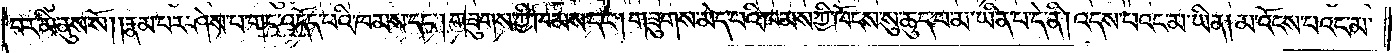བར་མི་ནུས་སོ། །རྣམ་པར་ཤེས་པ་གང་འདོད་པའི་ཁམས་དང༌། གཟུགས་ཀྱི་ཁམས་དང༌། གཟུགས་མེད་པའི་ཁམས་ཀྱི་ཁོངས་སུ་ཆུད་པ་མ་ཡིན་པ་དེ་ནི། འདས་པའང་མ་ཡིན། མ་འོངས་པའང་མ་
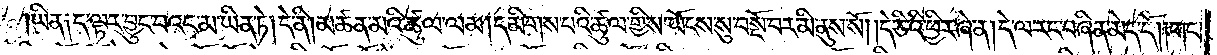ཡིན༑ ད་ལྟར་བྱུང་བའང་མ་ཡིན་ཏེ། དེ་ནི། མཚན་མའི་ཚུལ་ལམ། དམིགས་པའི་ཚུལ་གྱིས་ཡོངས་སུ་བསྔོ་བར་མི་ནུས་སོ། །དེ་ཅིའི་ཕྱིར་ཞེ་ན། དེ་ལ་རང་བཞིན་མེད་དོ། །གང་
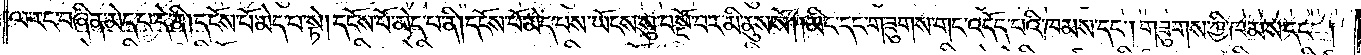ལ་རང་བཞིན་མེད་པ་དེ་ནི། དངོས་པོ་མེད་པ་སྟེ། དངོས་པོ་མེད་པ་ནི། དངོས་པ་མེད་པས་ཡོངས་སུ་བསྔོ་བར་མི་ནུས་སོ། །མིང་དང་གཟུགས་གང་འདོད་པའི་ཁམས་དང༌། གཟུགས་ཀྱི་ཁམས་དང༌།
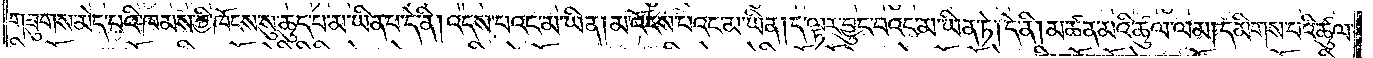གཟུགས་མེད་པའི་ཁམས་ཀྱི་ཁོངས་སུ་ཆུད་པ་མ་ཡིན་པ་དེ་ནི། འདས་པའང་མ་ཡིན། མ་འོངས་པའང་མ་ཡིན། ད་ལྟར་བྱུང་བའང་མ་ཡིན་ཏེ། དེ་ནི། མཚན་མའི་ཚུལ་ལམ། དམིགས་པའི་ཚུལ་
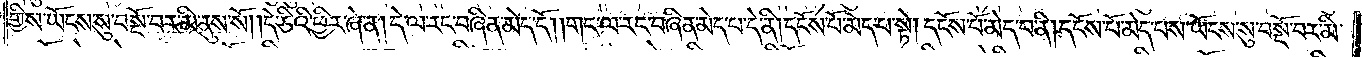གྱིས་ཡོངས་སུ་བསྔོ་བར་མི་ནུས་སོ། །དེ་ཅིའི་ཕྱིར་ཞེ་ན། དེ་ལ་རང་བཞིན་མེད་དོ། །གང་ལ་རང་བཞིན་མེད་པ་དེ་ནི། དངོས་པོ་མེད་པ་སྟེ། དངོས་པོ་མེད་པ་ནི། དངོས་པོ་མེད་པས་ཡོངས་སུ་བསྔོ་བར་མི་
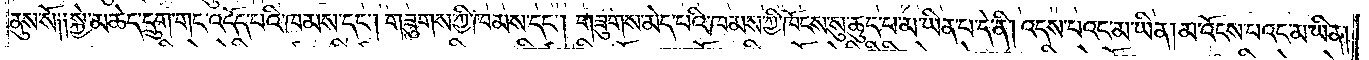ནུས་སོ༑ ༑སྐྱེ་མཆེད་དྲུག་གང་འདོད་པའི་ཁམས་དང༌། གཟུགས་ཀྱི་ཁམས་དང༌། གཟུགས་མེད་པའི་ཁམས་ཀྱི་ཁོངས་སུ་ཆུད་པ་མ་ཡིན་པ་དེ་ནི། འདས་པའང་མ་ཡིན། མ་འོངས་པའང་མ་ཡིན།
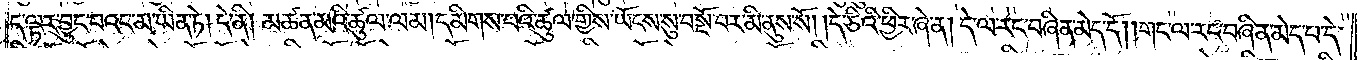ད་ལྟར་བྱུང་བའང་མ་ཡིན་ཏེ། དེ་ནི། མཚན་མའི་ཚུལ་ལམ། དམིགས་པའི་ཚུལ་གྱིས་ཡོངས་སུ་བསྔོ་བར་མི་ནུས་སོ། །དེ་ཅིའི་ཕྱིར་ཞེ་ན། དེ་ལ་རང་བཞིན་མེད་དོ། །གང་ལ་རང་བཞིན་མེད་པ་དེ་
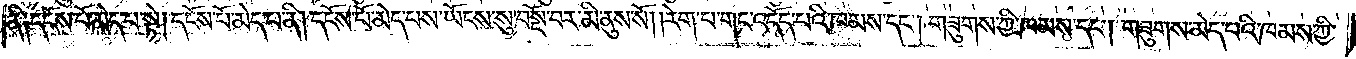ནི༑ དངོས་པོ་མེད་པ་སྟེ། དངོས་པོ་མེད་པ་ནི། དངོས་པོ་མེད་པས་ཡོངས་སུ་བསྔོ་བར་མི་ནུས་སོ། །རེག་པ་གང་འདོད་པའི་ཁམས་དང༌། གཟུགས་ཀྱི་ཁམས་དང༌། གཟུགས་མེད་པའི་ཁམས་ཀྱི་
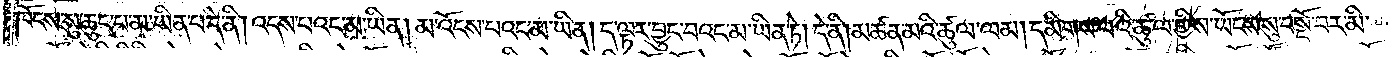ཁོངས་སུ་ཆུད་པ་མ་ཡིན་པ་དེ་ནི། འདས་བའང་མ་ཡིན། མ་འོངས་པའང་མ་ཡིན། ད་ལྟར་བྱུང་བའང་མ་ཡིན་ཏེ། དེ་ནི། མཚན་མའི་ཚུལ་ལམ། དམིགས་པའི་ཚུལ་གྱིས་ཡོངས་སུ་བསྔོ་བར་མི་
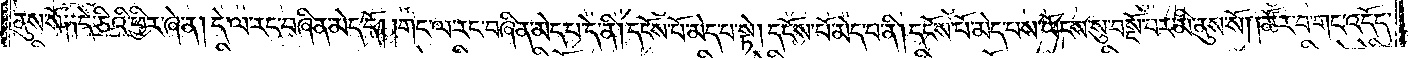ནུས་སོ༑ ༑དེ་ཅིའི་ཕྱིར་ཞེ་ན། དེ་ལ་རང་བཞིན་མེད་དོ། །གང་ལ་རང་བཞིན་མེད་པ་དེ་ནི། དངོས་པོ་མེད་པ་སྟེ། དངོས་པོ་མེད་པ་ནི། དངོས་པོ་མེད་པས་ཡོངས་སུ་བསྔོ་བར་མི་ནུས་སོ། །ཚོར་བ་གང་འདོད་
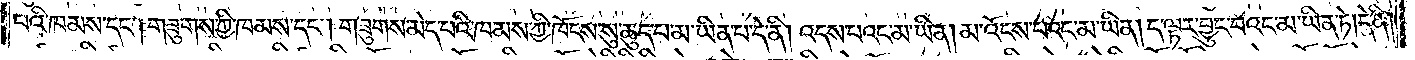པའི་ཁམས་དང༌། གཟུགས་ཀྱི་ཁམས་དང༌། གཟུགས་མེད་པའི་ཁམས་ཀྱི་ཁོངས་སུ་ཆུད་པ་མ་ཡིན་པ་དེ་ནི། འདས་པའང་མ་ཡིན། མ་འོངས་པའང་མ་ཡིན། ད་ལྟར་བྱུང་བའང་མ་ཡིན་ཏེ། དེ་ནི།
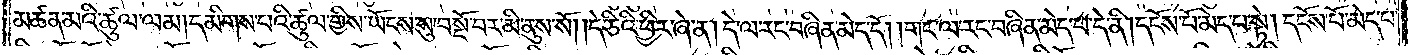མཚན་མའི་ཚུལ་ལམ། དམིགས་པའི་ཚུལ་གྱིས་ཡོངས་སུ་བསྔོ་བར་མི་ནུས་སོ། །དེ་ཅིའི་ཕྱིར་ཞེ་ན། དེ་ལ་རང་བཞིན་མེད་དོ། །གང་ལ་རང་བཞིན་མེད་པ་དེ་ནི། དངོས་པོ་མེད་པ་སྟེ། དངོས་པོ་མེད་པ་
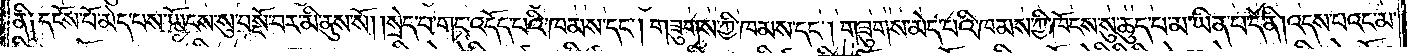ནི༑ དངོས་པོ་མེད་པས་ཡོངས་སུ་བསྔོ་བར་མི་ནུས་སོ། །སྲེད་པ་གང་འདོད་བའི་ཁམས་དང༌། གཟུགས་ཀྱི་ཁམས་དང༌། གཟུགས་མེད་པའི་ཁམས་ཀྱི་ཁོངས་སུ་ཆུད་པ་མ་ཡིན་པ་དེ་ནི། འདས་པའང་མ་
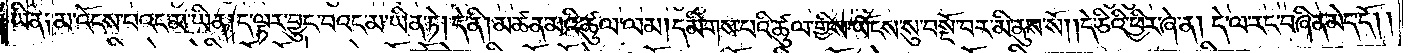ཡིན༑ མ་འོངས་པའང་མ་ཡིན། ད་ལྟར་བྱུང་བའང་མ་ཡིན་ཏེ། དེ་ནི། མཚན་མའི་ཚུལ་ལམ། དམིགས་པའི་ཚུལ་གྱིས་ཡོངས་སུ་བསྔོ་བར་མི་ནུས་སོ། །དེ་ཅིའི་ཕྱིར་ཞེ་ན། དེ་ལ་རང་བཞིན་མེད་དོ། །
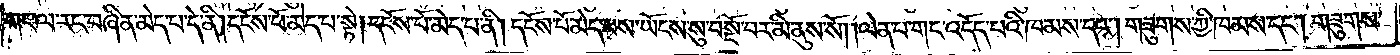གང་ལ་རང་བཞིན་མེད་པ་དེ་ནི། དངོས་པོ་མེད་པ་སྟེ། དངོས་པོ་མེད་པ་ནི། དངོས་པོ་མེད་པས་ཡོངས་སུ་བསྔོ་བར་མི་ནུས་སོ། །ལེན་པ་གང་འདོད་པའི་ཁམས་དང༌། གཟུགས་ཀྱི་ཁམས་དང༌། གཟུགས་
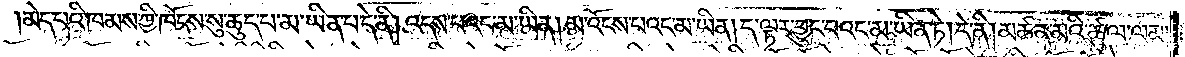མེད་པའི་ཁམས་ཀྱི་ཁོངས་སུ་ཆུད་པ་མ་ཡིན་པ་དེ་ནི། འདས་པའང་མ་ཡིན། མ་འོངས་པའང་མ་ཡིན། ད་ལྟར་བྱུང་བའང་མ་ཡིན་ཏེ། དེ་ནི། མཚན་མའི་ཚུལ་ལམ།
